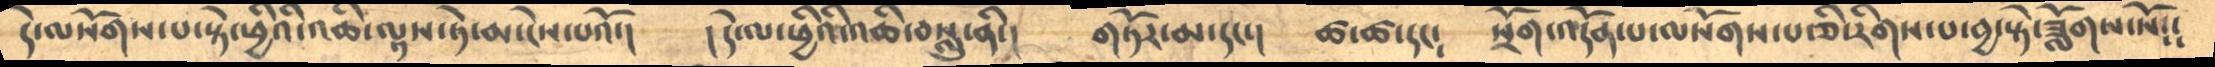དེ་ལསོགས་པ་སྟེ་ཕྱིའི་འཆི་ལྟས་ཏེ་མ་ངེས་པའོ་།     །དེ་ལ་ཕྱིའི་འཆི་བསླུ་ནི་།    གཏོར་མ་དང་།   ཚ་ཚ་དང༴    སྲོག་འདོན་པ་ལསོགས་པ་ཅི་རིགས་པ་བྱ་སྟེ་ཟློགས་སོ༴༴
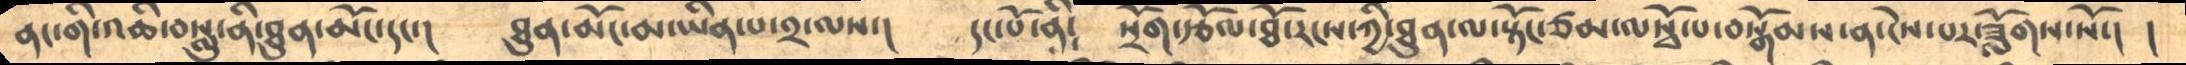ནང་གི་འཆི་བསླུ་ནི་ཐུན་མོང་དང་།     ཐུན་མོང་མ་ཡིན་པ་༢་ལས་།     དང་པོ་ནི༴   སྲོག་རྩོལ་ཐོ་རངས་ཀྱི་ཐུན་ལ་སྟོང་ཙམ་ལསྭོ་པ་བསྒོམས་ན་ངེས་པར་ཟློགས་སོ་།  །
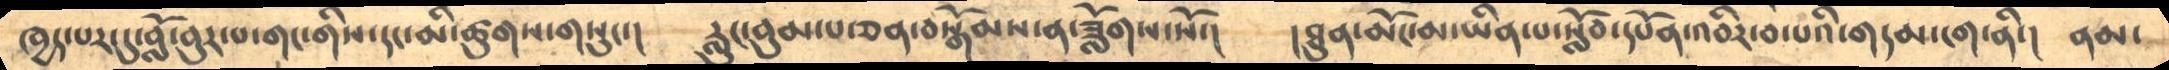ཁྱད་པར་དུ་བློ་བུར་པ་དག་གིས་དང་མི་ཚུགས་གསུང་།      རླུང་བུམ་པ་ཅན་བསྒོམས་ན་ཟློགས་སོ་།    །ཐུན་མོང་མ་ཡིན་པ་སློབ་དཔོན་འབིར་བ་པའི་གདམ་ངག་ནི་།    ནམ་
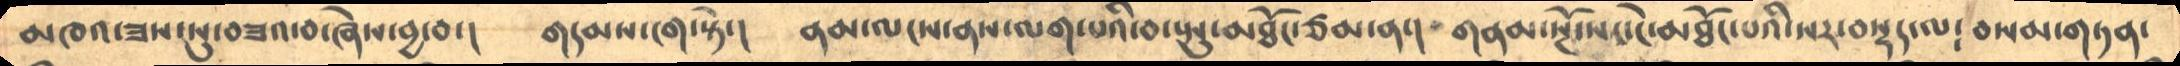མཁའ་ཟས་སུ་བཟའ་བ་ཞེས་བྱ་བ་།     གདམས་ངག་སྟེ་།      ནམ་ལངས་ནས་ལག་པའི་བ་སྤུ་མཐོང་ཙམ་ན་།   གནམ་སྔོ་སང་ངེ་མཐོང་པའི་སར་བསྡད་ལ༴  བསམ་གཏན་
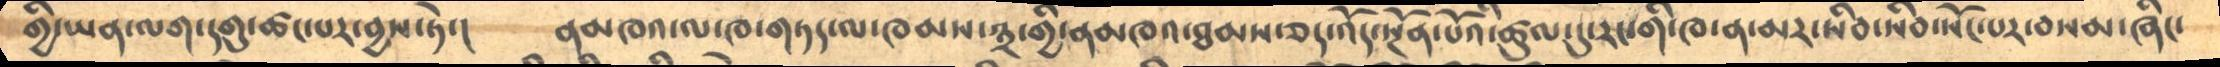གྱི་ཡན་ལག་དགུ་ཚང་པར་བྱས་ཏེ་།    ནམཁའ་ལ་ཁ་གཏད་ལ་ཁམས་༣་གྱི་ནམཁའ་ཐམས་ཅད་འོད་སྔོན་པོའི་ཚུལ་དུ་རང་གི་ཁ་ན་མར་སིབ་སིབ་སོང་པར་བསམ་ཞིང་
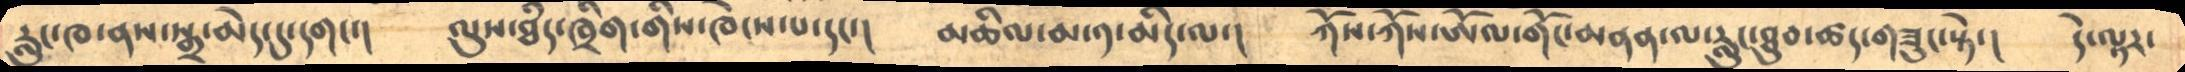རླུང་ཁ་ནས་སྒྲ་མེད་དུ་དགང་།     ལུས་ཐཾད་ཁྲིག་གིས་ཁེངས་པ་དང་།    མཆིལ་མ་༡་མིད་ལ་།    ཀོས་ཀོས་ཨོལ་གོང་མནན་ལ་རླུང་ཐུབ་ཚད་གཟུང་སྟེ་།   དེ་ལྟར་
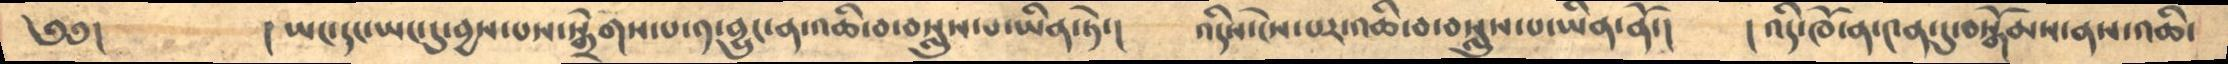༄༅།     །ཡང་དང་ཡང་དུ་བྱས་པས་སྒྲོགས་པ་༡་བྱུང་ན་འཆི་བ་བསླུས་པ་ཡིན་ཏེ་།     འདིས་ངེས་པར་འཆི་བ་བསླུས་པ་ཡིན་ནོ་།  །འདི་ཁོ་ན་༤ན་དུ་བསྒོམས་ནས་འཆི་
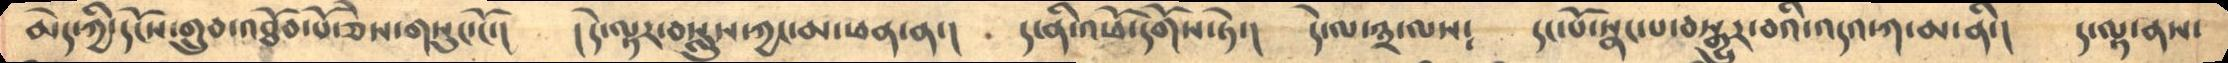མེད་ཀྱི་དངོས་གྲུབ་འཐོབ་པོ་ཅེས་གསུང་ངོ་།    །དེ་ལྟར་བསླུས་ཀྱང་མ་ཕན་ན་།    ད་ནི་འཕོ་དགོས་ཏེ་།    དེ་ལ་༣་ལས༴    དང་པོ་སྣང་པ་བསྒྱུར་བའི་འདའ་ཀ་མ་ནི་།    ད་ལྟ་ནས་
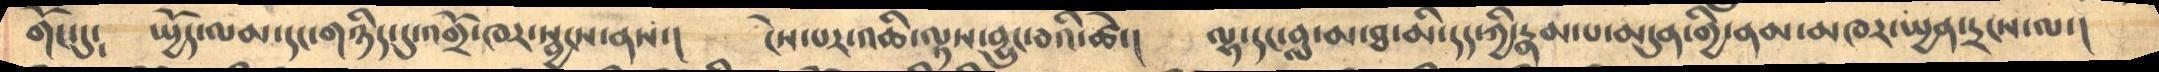གོང་དུ༴     སྤྱོད་ལམ་དང་གཉིད་དུ་འགྲོ་ཁར་སྦྱངས་ནས་།     ངེས་པར་འཆི་ལྟས་བྱུང་བའི་ཚེ་།    ལྷ་དང་བླ་མ་ཐ་མི་དད་ཀྱི་རྣམ་པ་མདུན་གྱི་ནམ་མཁར་སྤྱན་དྲངས་ལ་།
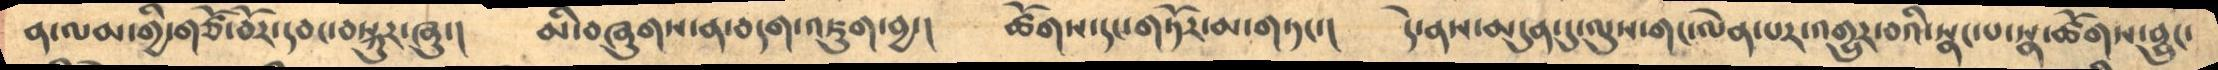ན་ལམ་གྱི་གཙོ་བོར་དབང་བསྐུར་ཞུ་།     མི་བཞུགས་ན་བདག་འཇུག་བྱ་།    ཚོགས་དང་གཏོར་མ་གཏང་།     དེ་ནས་མདུན་དུ་ལུས་གང་ལེན་པར་འགྱུར་བའི་སྣང་པ་སྣ་ཚོགས་བྱུང་
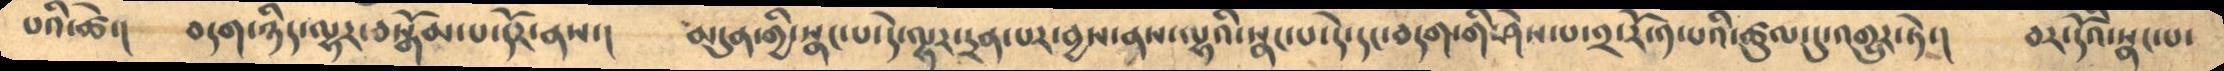པའི་ཚེ་།     བདག་ཉིད་ལྷར་བསྒོམ་པ་དོར་ནས་།      མདུན་གྱི་སྣང་པ་དེ་ལྷར་དྲན་པར་བྱས་ནས་ལྷའི་སྣང་པ་དེ་དང་བདག་གི་ཤེས་པ་༢་རོ་༡་པའི་ཚུལ་དུ་འགྱུར་ཏེ་།    བར་དོའི་སྣང་པ་
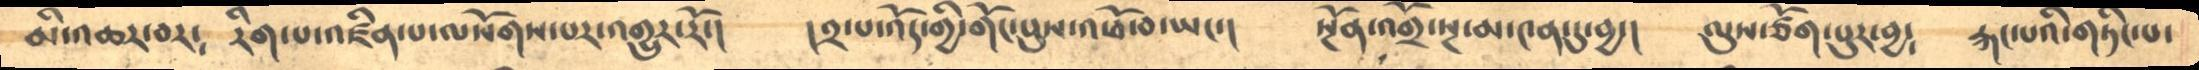མི་འཆར་བར༴    རིག་པ་འཛིན་པ་ལ་སོགས་པར་྄གྱུར་རོ་།     །༢་པ་འོད་གྱི་གོང་པུས་འཕོ་བ་ཡང་།   སྔོན་འགྲོ་སྔ་མ་༤ན་དུ་བྱ་།   ལུས་ཙོག་པུར་བྱ༴   རྐང་པའི་གཏིང་པ་
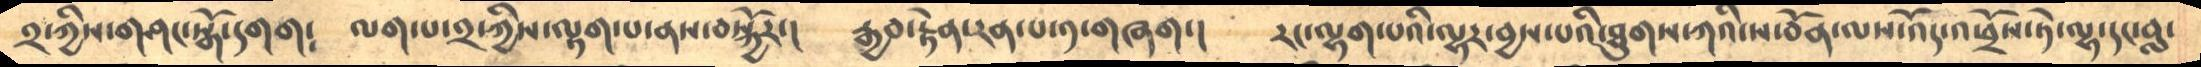༢་ཀྱིས་གཤང་སྒོ་དགག༴    ལག་པ་༢་ཀྱིས་ལྷག་པ་ནས་བསྐྱོར་།    རྒྱབ་རྟེན་རན་པ་༡་གཞག་།     རང་ལྷག་པའི་ལྷར་བྱས་པའི་ཐུགས་ཀའི་ས་བོན་ལས་འོད་འཕྲོས་ཏེ་ལྷ་དང་བླ་
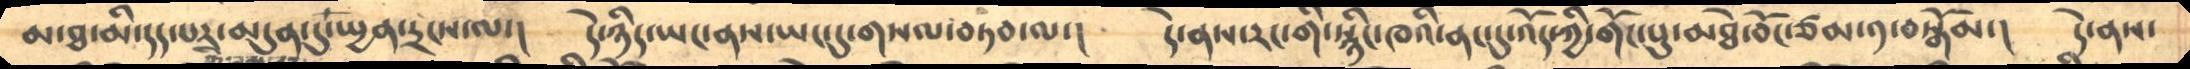མ་ཐ་མི་དད་པར་མདུན་དུ་སྤྱན་དྲངས་ལ་།     དེ་ཉིད་ཡང་ནས་ཡངདུ་གསལ་བཏབ་ལ་།    དེ་ནས་རང་གི་སྙིང་ཁའི་ནང་དུ་འོད་ཀྱི་གོང་པུ་མཐེ་བོང་ཙམ་༡་བསྒོམ་།   དེ་ནས་
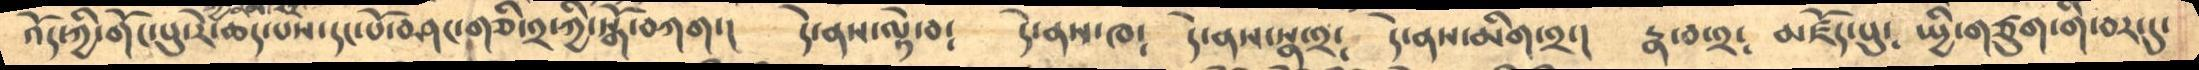འོད་ཀྱི་གོང་པུ་རེ་ཆོད་པས་དང་པོ་བཤང་གཅི་༢་ཀྱི་སྒོ་བཀག་།    དེ་ནས་ལྟེ་བ༴     དེ་ནས་ཁ༴     དེ་ནས་སྣ་༢༴     དེ་ནས་མིག་༢་།   རྣ་བ་༢༴    མཛོད་པུ༴    སྤྱི་གཙུག་གི་བར་དུ་
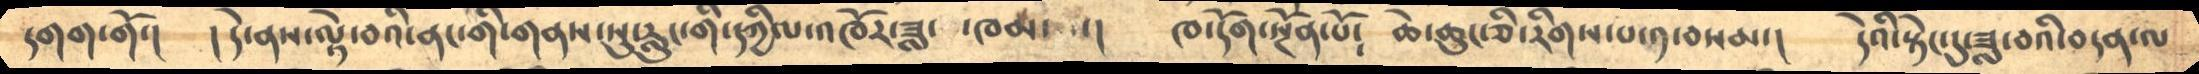དགག་གོ་།    །དེ་ནས་ལྟེ་བའི་ནང་གི་གནས་སུ་རླུང་གི་དཀྱིལ་འཁོར་ཟླ་  ཁམ  ་།    ཁ་དོག་སྔོན་པོ༴    ཆེ་ཆུང་ཅི་རིགས་པ་༡་བསམ་།   དེའི་སྟེང་དུ་ཟླ་བའི་བདན་ལ
